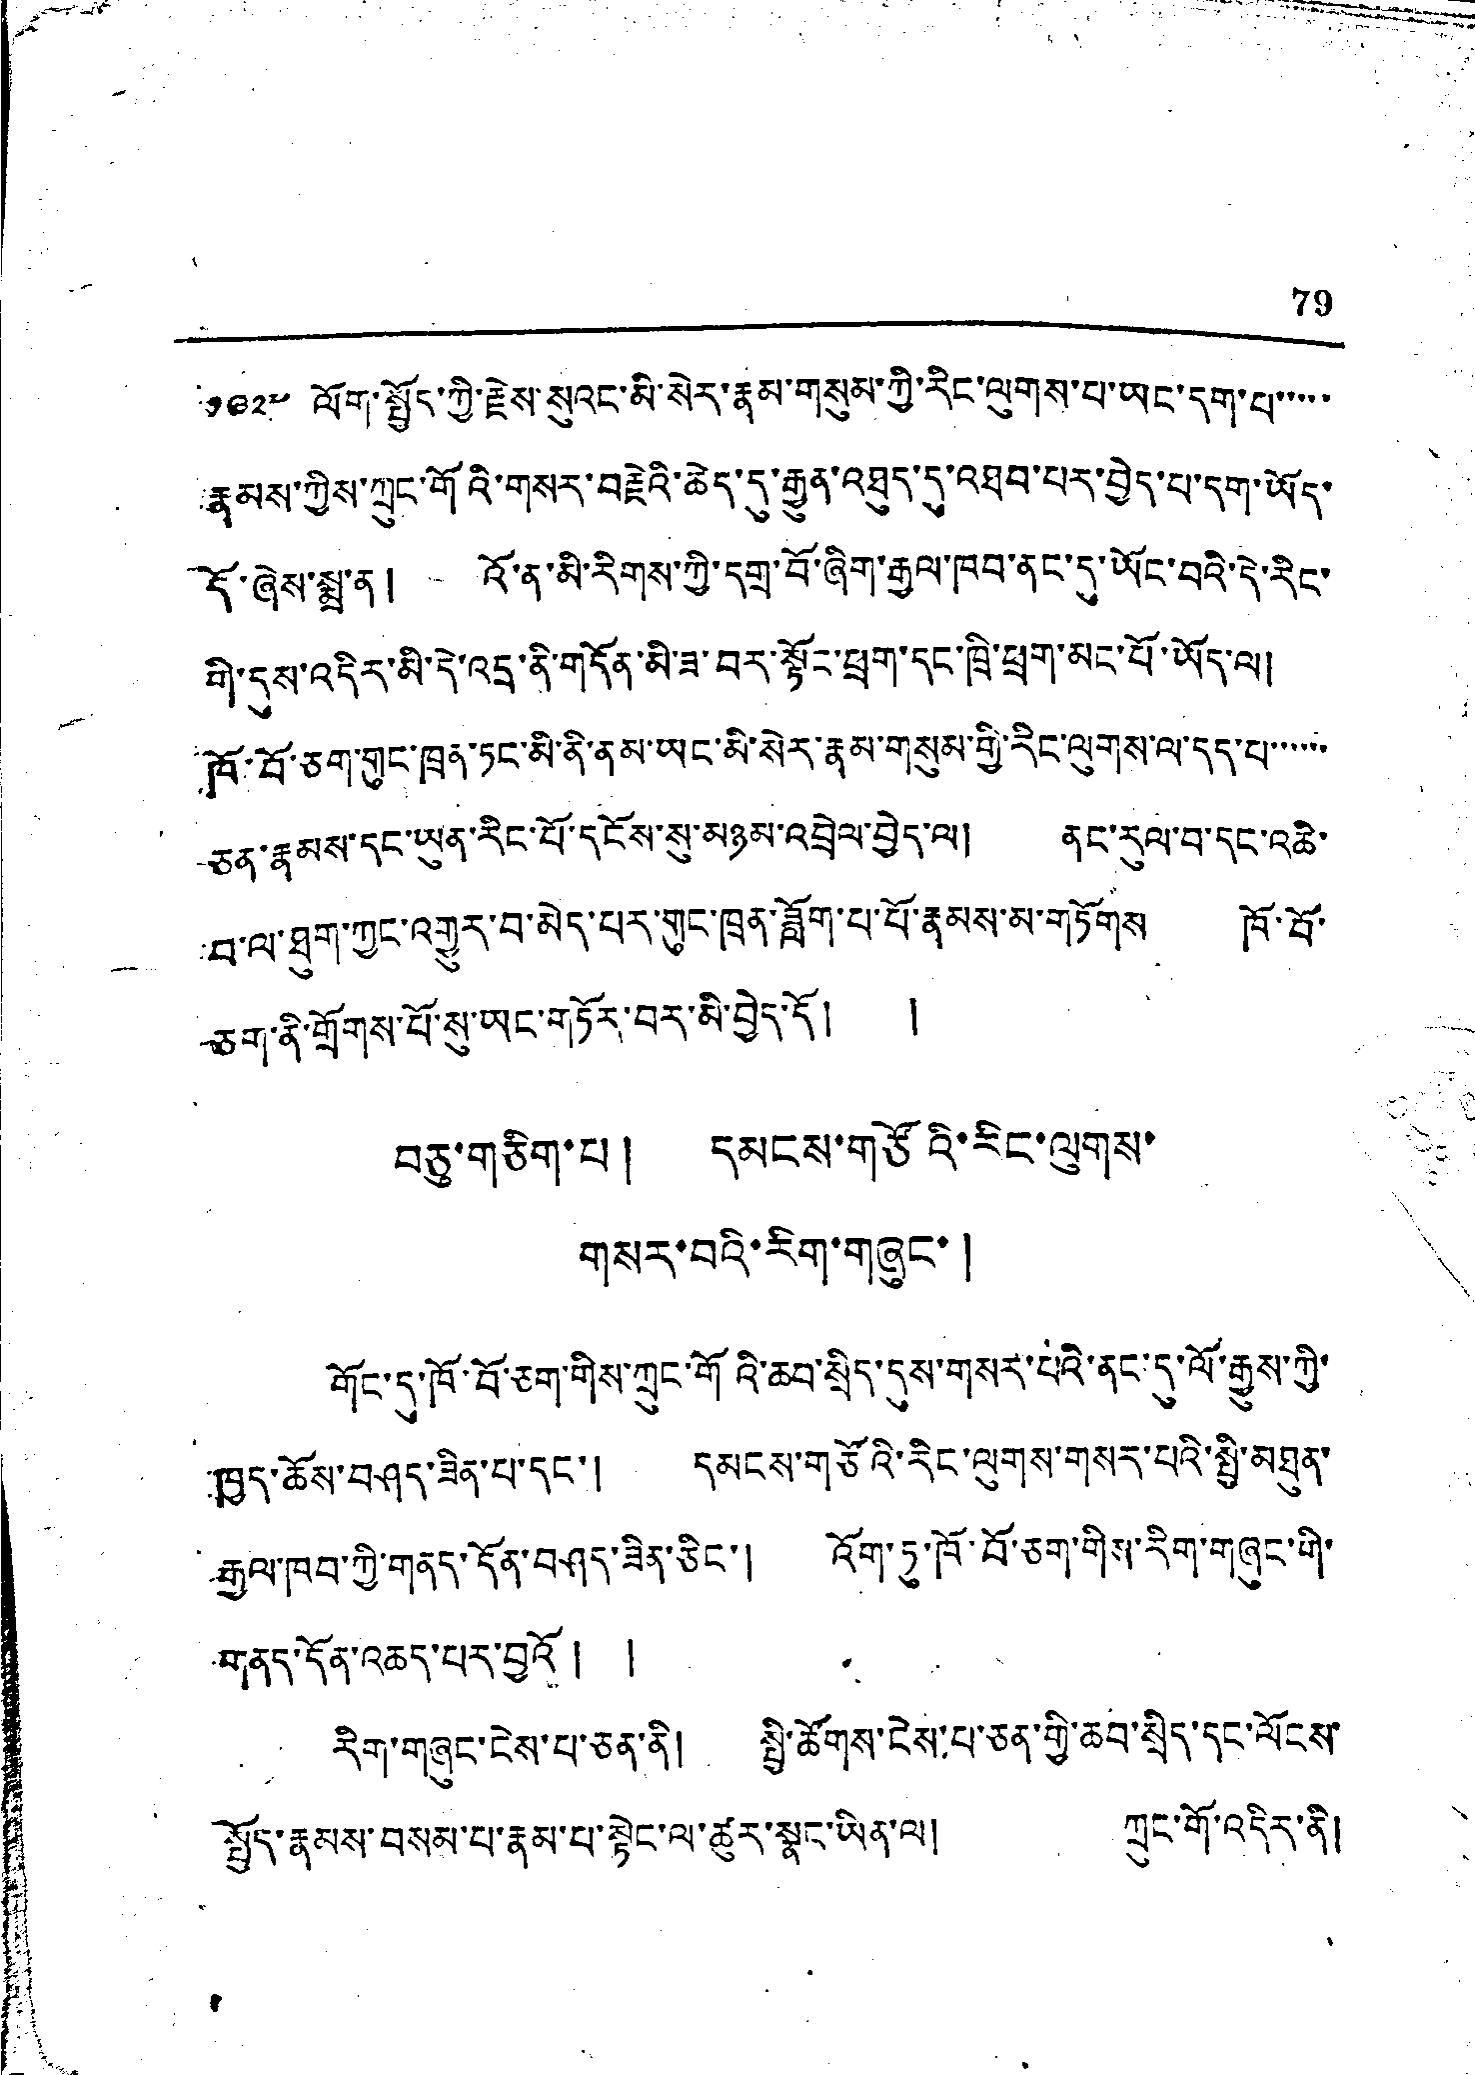79
༡༩༢༧ ལོག་སྤྱོད་ཀྱི་རྗེས་སུའང་མི་སེར་རྣམ་གསུམ་ཀྱི་རིང་ལུགས་པ་ཡང་དག་པ་་་་་
རྣམས་ཀྱིས་ཀྲུང་གོའི་གསར་བརྗེའི་ཆེད་དུ་རྒྱུན་འཐུད་དུ་འཐབ་པར་བྱེད་པ་དག་ཡོད་
དོ་ཞེས་སྨྲ་ན། འོ་ན་མི་རིགས་ཀྱི་དགྲ་བོ་ཞིག་རྒྱལ་ཁབ་ནང་དུ་ཡོང་བའི་དེ་རིང་
གི་དུས་འདིར་མི་དེ་འདྲ་ནི་གདོན་མི་ཟ་བར་སྟོང་ཕྲག་དང་ཁྲི་ཕྲག་མང་པོ་ཡོད་ལ།
ཁོ་བོ་ཅག་གུང་ཁྲན་ཏང་མི་ནི་ནམ་ཡང་མི་སེར་རྣམ་གསུམ་གྱི་རིང་ལུགས་ལ་དད་པ་་་་་་
ཅན་རྣམས་དང་ཡུན་རིང་པོ་དངོས་སུ་མཉམ་འབྲེལ་བྱེད་ལ། ནང་རུལ་བ་དང་འཆེ་
བ་ལ་ཐུག་ཀྱང་འགྱུར་བ་མེད་པར་གུང་ཁྲན་ཟློག་པ་པོ་རྣམས་མ་གཏོགས ཁོ་བོ་
ཅག་ནི་གྲོགས་པོ་སུ་ཡང་གཏོར་བར་མི་བྱེད་དོ། །
བཅུ་གཅིག་པ། དམངས་གཙོའི་རིང་ལུགས་
གསར་བའི་རིག་གཞུང་།
གོང་དུ་ཁོ་བོ་ཅག་གིས་ཀྲུང་གོའི་ཆབ་སྲིད་དུས་གསར་པའི་ནང་དུ་ལོ་རྒྱུས་ཀྱི་
ཁྱད་ཆོས་བཤད་ཟིན་པ་དང་། དམངས་གཙོའི་རིང་ལུགས་གསྲ་པའི་སྤྱི་མཐུན་
རྒྱལ་ཁབ་ཀྱི་གནད་དོན་བཤད་ཟིན་ཅིང་། འོག་ཏུ་ཁོ་བོ་ཅག་གིས་རིག་གཞུང་གི་
གནད་དོན་འཆད་པར་བྱའོ། །
རིག་གཞུང་ངེས་པ་ཅན་ནི། སྤྱི་ཚོགས་ངེས་པ་ཅན་གྱི་ཆབ་སྲིད་དང་ལོངས་
སྤྱོད་རྣམས་བསམ་པ་རྣམ་པ་སྟེང་ལ་ཚུར་སྣང་ཡིན་ལ། ཀྲུང་གོ་འདིར་ནི།
